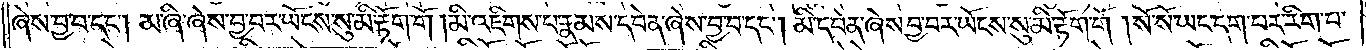ཞེས་བྱ་བ་དང༌། མ་ཞི་ཞེས་བྱ་བར་ཡོངས་སུ་མི་རྟོག་གོ །མི་འཇིགས་པ་རྣམས་དབེན་ཞེས་བྱ་བ་དང༌། མི་དབེན་ཞེས་བྱ་བར་ཡོངས་སུ་མི་རྟོག་གོ །སོ་སོ་ཡང་དག་པར་རིག་པ་
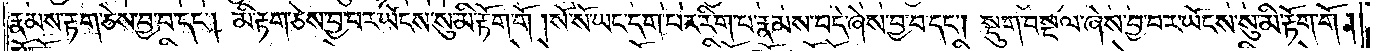རྣམས་རྟག་ཅེས་བྱ་བ་དང༌། མི་རྟག་ཅེས་བྱ་བར་ཡོངས་སུ་མི་རྟོག་གོ །སོ་སོ་ཡང་དག་པར་རིག་པ་རྣམས་བདེ་ཞེས་བྱ་བ་དང༌། སྡུག་བསྔལ་ཞེས་བྱ་བར་ཡོངས་སུ་མི་རྟོག་གོ །
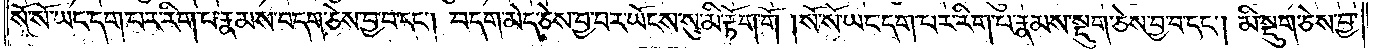སོ་སོ་ཡང་དག་པར་རིག་པ་རྣམས་བདག་ཅེས་བྱ་བ་དང༌། བདག་མེད་ཅེས་བྱ་བར་ཡོངས་སུ་མི་རྟོག་གོ །སོ་སོ་ཡང་དག་པར་རིག་པ་རྣམས་སྡུག་ཅེས་བྱ་བ་དང༌། མི་སྡུག་ཅེས་བྱ་
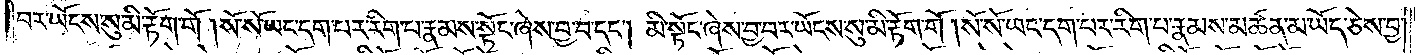བར་ཡོངས་སུ་མི་རྟོག་གོ །སོ་སོ་ཡང་དག་པར་རིག་པ་རྣམས་སྟོང་ཞེས་བྱ་བ་དང༌། མི་སྟོང་ཞེས་བྱ་བར་ཡོངས་སུ་མི་རྟོག་གོ །སོ་སོ་ཡང་དག་པར་རིག་པ་རྣམས་མཚན་མ་ཡོད་ཅེས་བྱ་
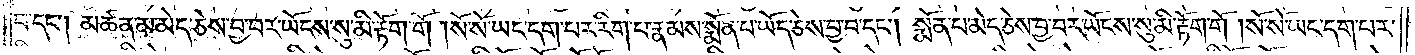བ་དང༌། མཚན་མ་མེད་ཅེས་བྱ་བར་ཡོངས་སུ་མི་རྟོག་གོ །སོ་སོ་ཡང་དག་པར་རིག་པ་རྣམས་སྨོན་པ་ཡོད་ཅེས་བྱ་བ་དང༌། སྨོན་པ་མེད་ཅེས་བྱ་བར་ཡོངས་སུ་མི་རྟོག་གོ །སོ་སོ་ཡང་དག་པར་
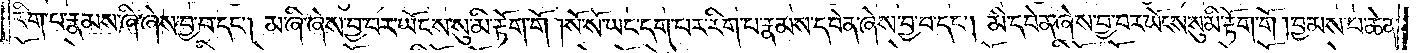རིག་པ་རྣམས་ཞི་ཞེས་བྱ་བ་དང༌། མ་ཞི་ཞེས་བྱ་བར་ཡོངས་སུ་མི་རྟོག་གོ །སོ་སོ་ཡང་དག་པར་རིག་པ་རྣམས་དབེན་ཞེས་བྱ་བ་དང༌། མི་དབེན་ཞེས་བྱ་བར་ཡོངས་སུ་མི་རྟོག་གོ །བྱམས་པ་ཆེན་
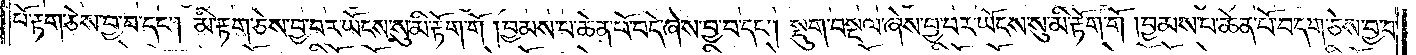པོ་རྟག་ཅེས་བྱ་བ་དང༌། མི་རྟག་ཅེས་བྱ་བར་ཡོངས་སུ་མི་རྟོག་གོ །བྱམས་པ་ཆེན་པོ་བདེ་ཞེས་བྱ་བ་དང༌། སྡུག་བསྔལ་ཞེས་བྱ་བར་ཡོངས་སུ་མི་རྟོག་གོ །བྱམས་པ་ཆེན་པོ་བདག་ཅེས་བྱ་བ་
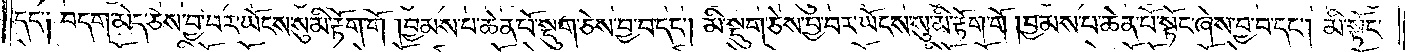དང༌། བདག་མེད་ཅེས་བྱ་བར་ཡོངས་སུ་མི་རྟོག་གོ །བྱམས་པ་ཆེན་པོ་སྡུག་ཅེས་བྱ་བ་དང༌། མི་སྡུག་ཅེས་བྱ་བར་ཡོངས་སུ་མི་རྟོག་གོ །བྱམས་པ་ཆེན་པོ་སྟོང་ཞེས་བྱ་བ་དང༌། མི་སྟོང་
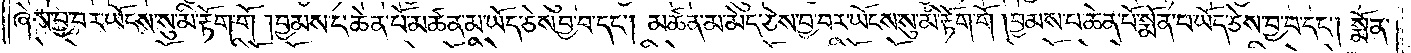ཞེས་བྱ་བར་ཡོངས་སུ་མི་རྟོག་གོ །བྱམས་པ་ཆེན་པོ་མཚན་མ་ཡོད་ཅེས་བྱ་བ་དང༌། མཚན་མ་མེད་ཅེས་བྱ་བར་ཡོངས་སུ་མི་རྟོག་གོ །བྱམས་པ་ཆེན་པོ་སྨོན་པ་ཡོད་ཅེས་བྱ་བ་དང༌། སྨོན་
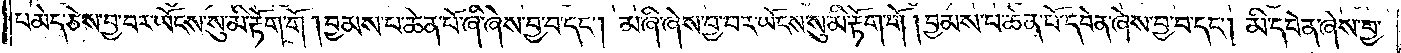པ་མེད་ཅེས་བྱ་བར་ཡོངས་སུ་མི་རྟོག་གོ །བྱམས་པ་ཆེན་པོ་ཞི་ཞེས་བྱ་བ་དང༌། མ་ཞི་ཞེས་བྱ་བར་ཡོངས་སུ་མི་རྟོག་གོ །བྱམས་པ་ཆེན་པོ་དབེན་ཞེས་བྱ་བ་དང༌། མི་དབེན་ཞེས་བྱ་
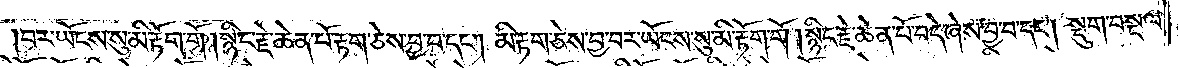བར་ཡོངས་སུ་མི་རྟོག་གོ །སྙིང་རྗེ་ཆེན་པོ་རྟག་ཅེས་བྱ་བ་དང༌། མི་རྟག་ཅེས་བྱ་བར་ཡོངས་སུ་མི་རྟོག་གོ །སྙིང་རྗེ་ཆེན་པོ་བདེ་ཞེས་བྱ་བ་དང༌། སྡུག་བསྔལ་
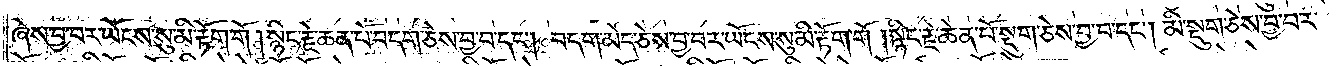ཞེས་བྱ་བར་ཡོངས་སུ་མི་རྟོག་གོ །སྙིང་རྗེ་ཆེན་པོ་བདག་ཅེས་བྱ་བ་དང༌། བདག་མེད་ཅེས་བྱ་བར་ཡོངས་སུ་མི་རྟོག་གོ །སྙིང་རྗེ་ཆེན་པོ་སྡུག་ཅེས་བྱ་བ་དང༌། མི་སྡུག་ཅེས་བྱ་བར་
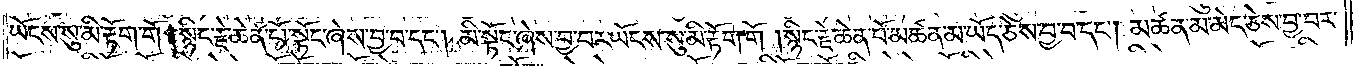ཡོངས་སུ་མི་རྟོག་གོ །སྙིང་རྗེ་ཆེན་པོ་སྟོང་ཞེས་བྱ་བ་དང༌། མི་སྟོང་ཞེས་བྱ་བར་ཡོངས་སུ་མི་རྟོག་གོ །སྙིང་རྗེ་ཆེན་པོ་མཚན་མ་ཡོད་ཅེས་བྱ་བ་དང༌། མཚན་མ་མེད་ཅེས་བྱ་བར་
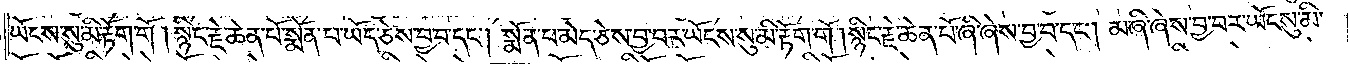ཡོངས་སུ་མི་རྟོག་གོ །སྙིང་རྗེ་ཆེན་པོ་སྨོན་པ་ཡོད་ཅེས་བྱ་བ་དང༌། སྨོན་པ་མེད་ཅེས་བྱ་བར་ཡོངས་སུ་མི་རྟོག་གོ །སྙིང་རྗེ་ཆེན་པོ་ཞི་ཞེས་བྱ་བ་དང༌། མ་ཞི་ཞེས་བྱ་བར་ཡོངས་སུ་མི་
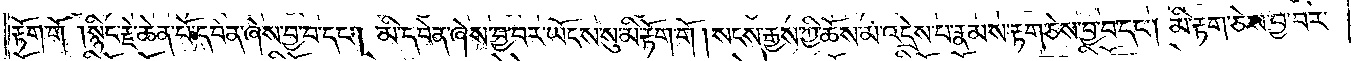རྟོག་གོ །སྙིང་རྗེ་ཆེན་པོ་དབེན་ཞེས་བྱ་བ་དང༌། མི་དབེན་ཞེས་བྱ་བར་ཡོངས་སུ་མི་རྟོག་གོ །སངས་རྒྱས་ཀྱི་ཆོས་མ་འདྲེས་པ་རྣམས་རྟག་ཅེས་བྱ་བ་དང༌། མི་རྟག་ཅེས་བྱ་བར་
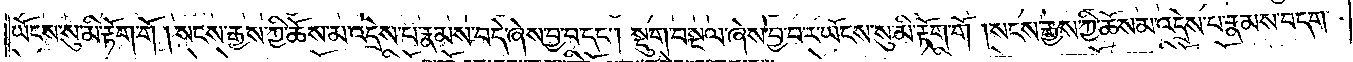ཡོངས་སུ་མི་རྟོག་གོ །སངས་རྒྱས་ཀྱི་ཆོས་མ་འདྲེས་པ་རྣམས་བདེ་ཞེས་བྱ་བ་དང༌། སྡུག་བསྔལ་ཞེས་བྱ་བར་ཡོངས་སུ་མི་རྟོག་གོ །སངས་རྒྱས་ཀྱི་ཆོས་མ་འདྲེས་པ་རྣམས་བདག་
